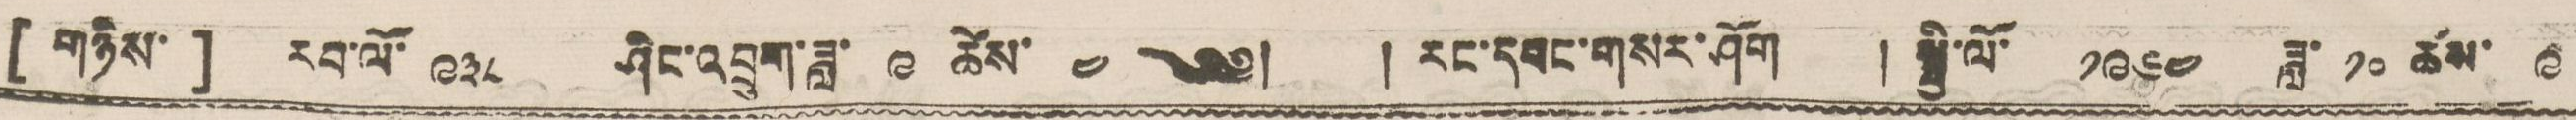[ གཉིས་ ] རབ་ལོ་ ༩༣༨ ཤིང་འབྲུག་ཟླ་ ༩ ཚེས་ ༤ ༄༅། །རང་དབང་གསར་ཤོག །སྤྱི་ལོ་ ༡༩༦༤ ཟླ་ ༡༠ ཚེས་༩
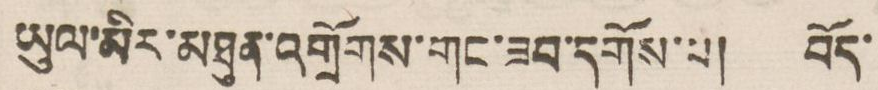ཡུལ་མིར་མཐུན་འགྲོགས་གང་ཟབ་དགོས་པ། བོད་
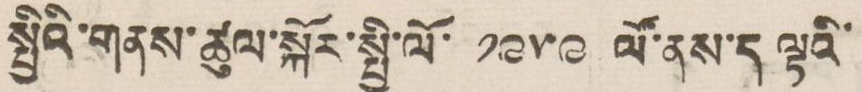སྤྱིའི་གནས་ཚུལ་སྐོར་སྤྱི་ལོ་ ༡༩༥༩ ལོ་ནས་ད ལྟའི་
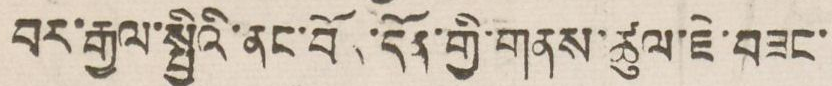བར་རྒྱལ་སྤྱིའི་ནང་བོད་དོན་གྱི་གནས་ཚུལ་ཇེ་བཟང་
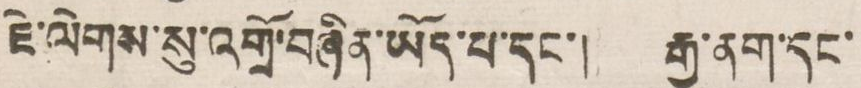ཇེ་ལེགས་སུ་འགྲོ་བཞིན་ཡོད་པ་དང་། རྒྱ་ནག་དང་
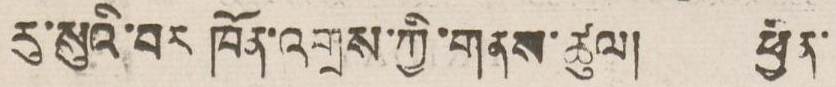རུ་སུའི་བར ཁོན་འགྲས་ཀྱི་གནས་ཚུལ། ཕྱིན་
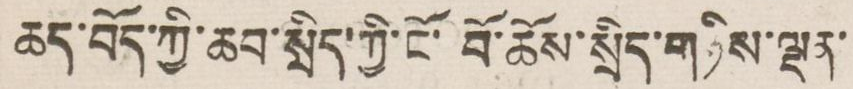ཆད་བོད་ཀྱི་ཆབ་སྲིད་ཀྱི་ངོ་བོ་ཆོས་སྲིད་གཉིས་ལྡན་
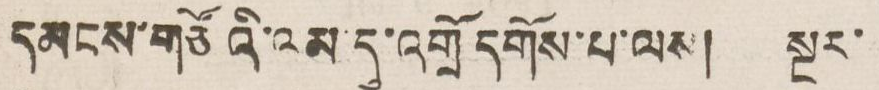དམངས་གཙོའི་ལམ་དུ་འགྲོ དགོས་པ་ལས། སྔར་
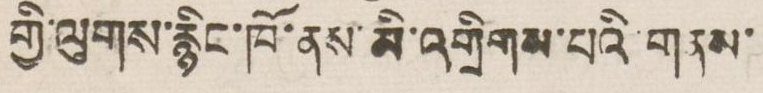གྱི་ལུགས་རྙིང་ཁོ་ནས་མི་འགྲིགས་པའི་གནས་
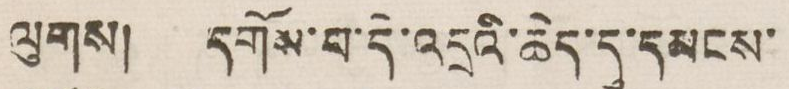ལུགས། དགོས་པ་དེ་འདྲའི་ཆེད་དུ་དམངས་
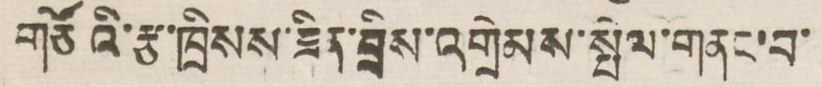གཙོའི་རྩ་ཁྲིམས་ཟིན་བྲིས་འགྲེམས་སྤེལ་གནང་བ་
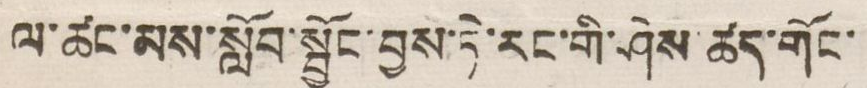ལ་ཚང་མས་སློབ་སྦྱོང་བྱས་ཏེ་རང་གི་ཤེས ཚད་གོང་
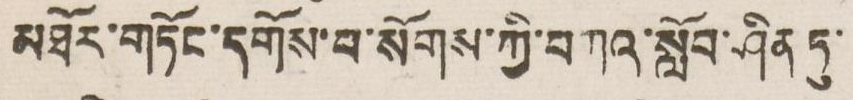མཐོར་གཏོང་དགོས་པ་སོགས་ཀྱི་བཀའ་སློབ་ཤིན ཏུ་
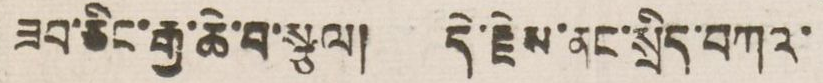ཟབ་ཅིང་རྒྱ་ཆེ་བ་སྩལ། དེ་རྗེས་ནང་སྲིད་བཀའ་
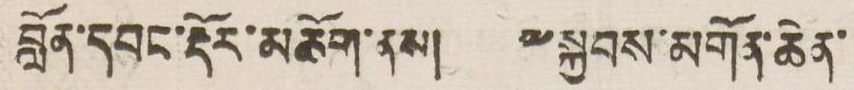བློན་དབང་རྡོར་མཆོག་ནས། ༸སྐྱབས་མགོན་ཆེན་
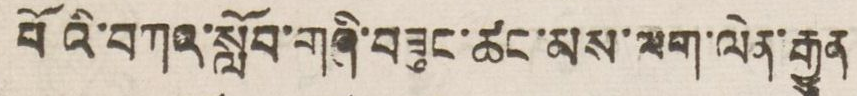པོའི་བཀའ་སློབ་གཞི་བཟུང་ཚང་མས་ལག་ལེན་རྒྱུན
